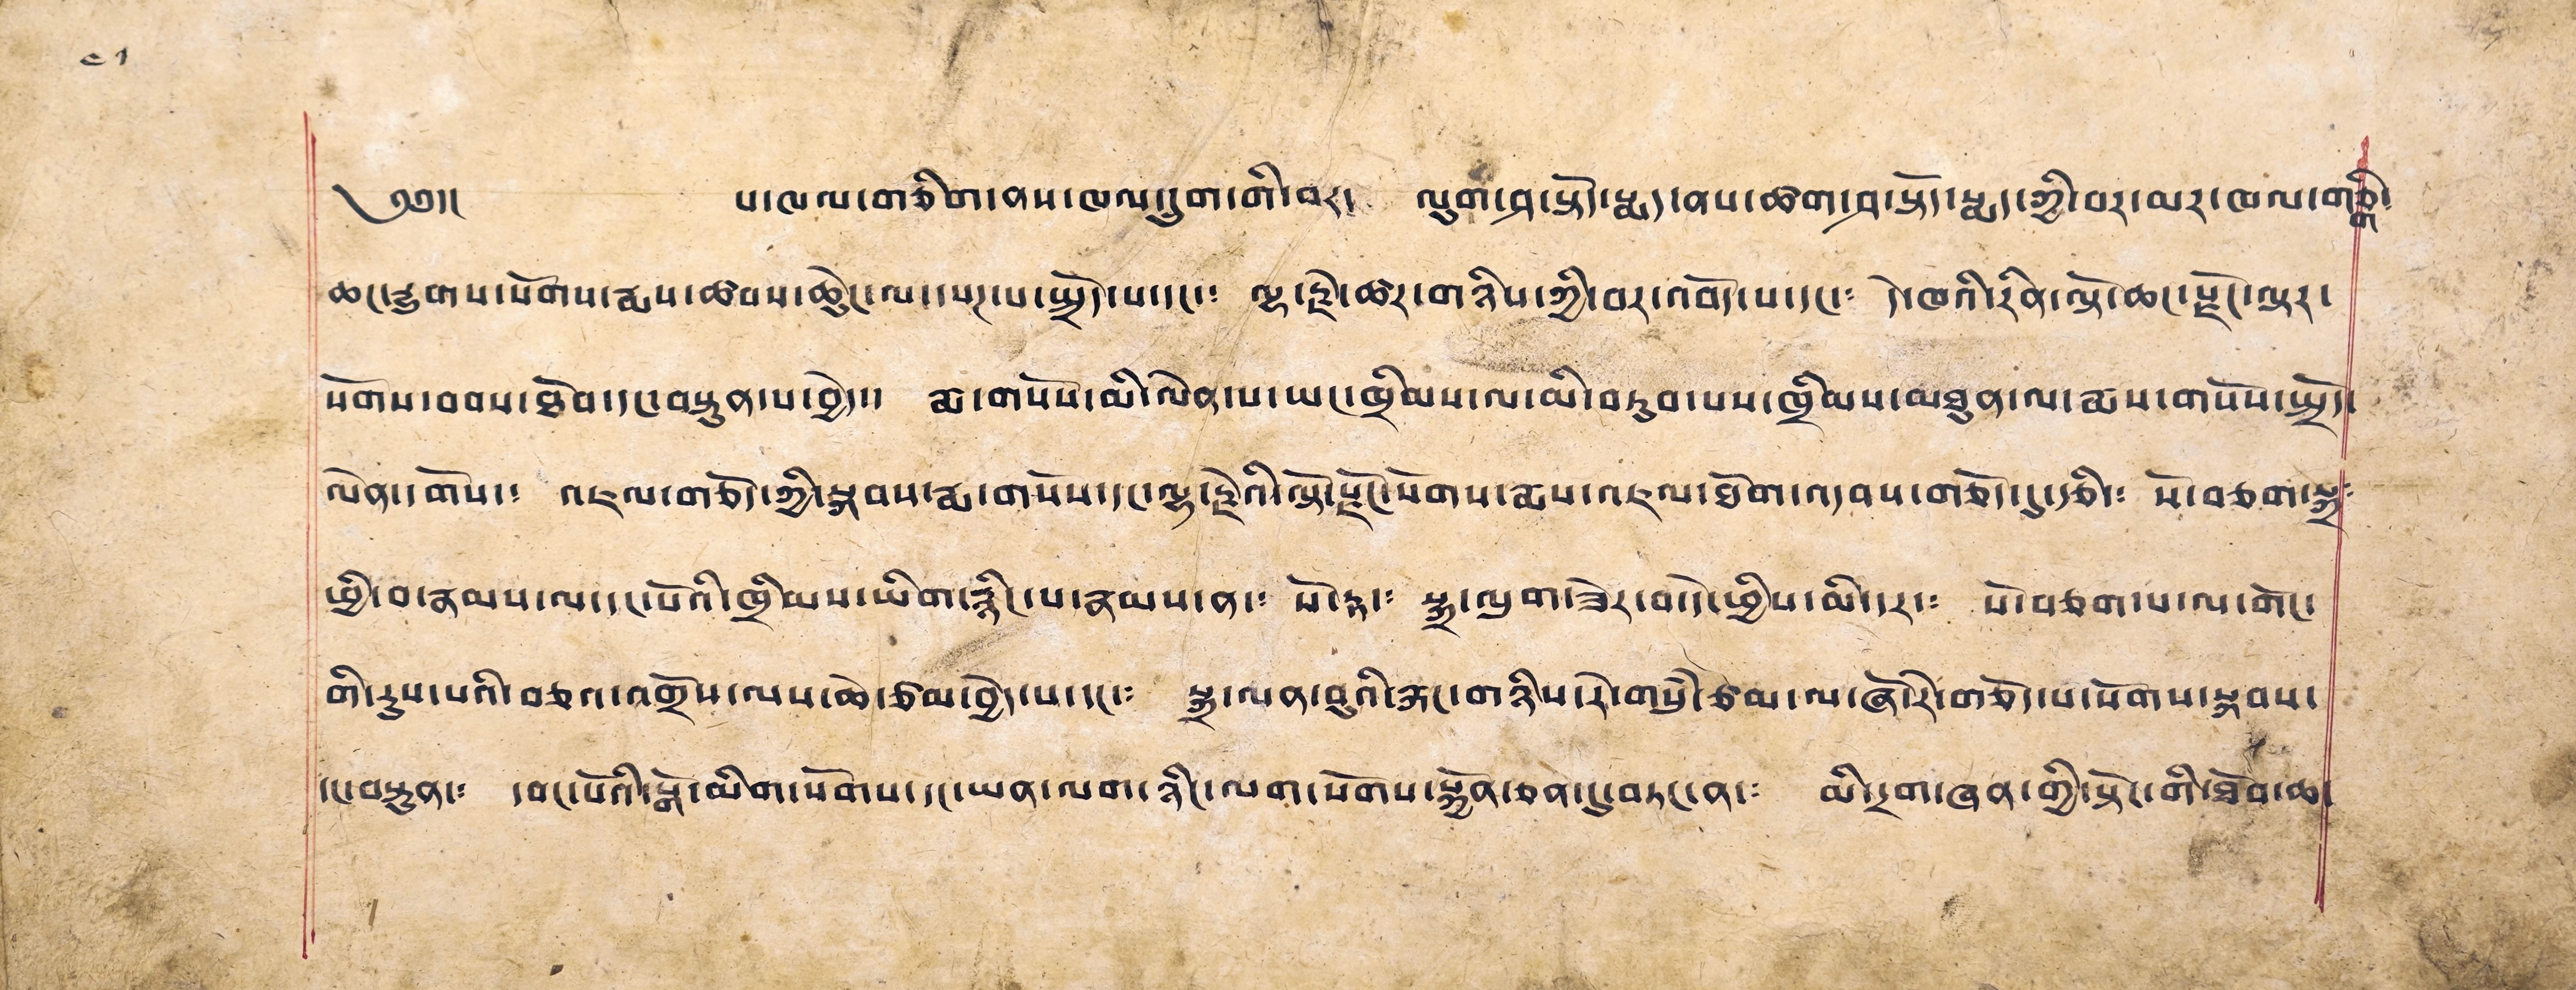༄༅།།  པ་ཁལ་གཅིག་ནས་ཁལ་དྲུག་གི་བར། ལུག་ཤ་སྡོད་སྨད་ནས་ཚག་ཤ་སྟོད་སྨད་ཀྱི་བར་མར་ཁལ་གཅིག༴
ཆང་རྒྱུགས་སོགས་རྨས་ཚབས་ཆེུང་ལ་དཔཊ་པ་སྤྲོད་པ་དང་༴ ལྷ་རྗེ་ཚར་གཉིས་ཀྱི་བར་འབོད་པ་དང་། དེ་ཁའི་རིན་ལྟོ་ཆང་རྫོང་ལྟར་
སོགས་བབས་ཐོབ་དང་བསྟུན་པ་བྱེད་༴ རྨ་གསོས་མི་ལེན་པ་ཡང་ཁྲིམས་ལ་མི་བཏུབ་པས་ཁྲིམས་མཐུན་ལ་རྨས་གསོས་སྤྲོད་
ལེན་དགོས་༴ འཇལ་གཅོད་ཀྱི་སྐབས་རྨ་གསོས་དང་ལྷ་རྗེའི་ལྟོ་རྫོང་སོགས་རྨས་འཇལ་ཐོག་འདབས་གཅོད་དུ་རྩི་༴ སོ་བཅག་སྐྲ༴
ཕྱི་བ་རྣམས་ལ་དང་པོའི་ཁྲིམས་ཡིག་རྙིང་པ་རྣམས་ན་༴ སོ་རྟ་༴ སྐྲ་ལུག་ཟེར་བ་དེ་ཕྱིས་མི་དར་༴ སོ་བཅག་པ་ལ་གོང་
གི་རུས་པའི་བཅའ་འགྲོས་ལས་ཆེ་ཙམ་བྱེད་པ་དང་༴ སྐྲ་ལན་བུའི་རྐང་གཉིས་རེ་གསུཾ་ཅམ་ལ་ཞོ་རེ་གཅོད་པ་སོགས་སྐབས་
དང་བསྟུན་༴ དབང་པོའི་སྒོ་མིག་སོགས་དང་ཡན་ལག་ཉིང་ལག་སོགས་སྐྱོན་ཅན་དུ་བཏང་ན་༴ མི་དྲག་ཞན་གྱི་སྟོང་གི་ཐོབ་ཆ་
